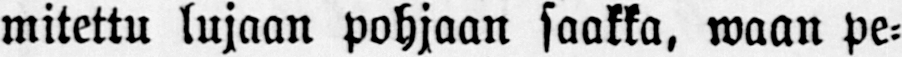mitettu lujaan pohjaan saakka, waan pe-
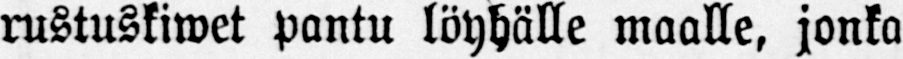rustuskiwet pantu löyhälle maalle, jonka
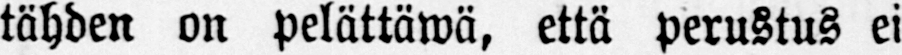tähden on pelättäwä, että perustus ei
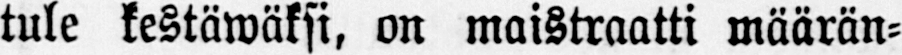tule kestäwäksi, on maistraatti määrän-
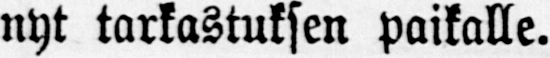nyt tarkastuksen paikalle.
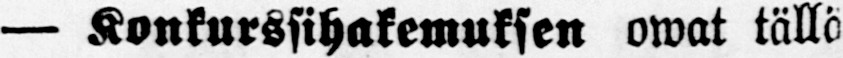— Konkurssihakemuksen owat tällä
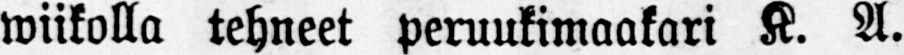wiikolla tehneet peruukimaakari K. A.
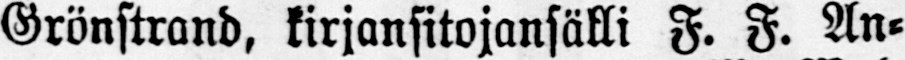Grönstrand, kirjansitojansälli F. F. An-
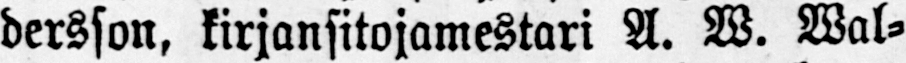dersson, kirjansitojamestari A. W. Wal-
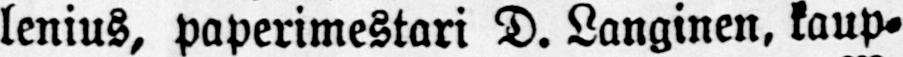lenius, paperimestari D. Langinen. kaup-
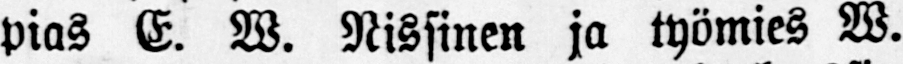pias E. W. Nissinen ja työmies W.
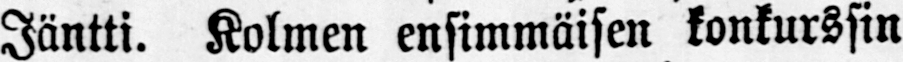Jäntti. Kolmen ensimmäisen konkurssin
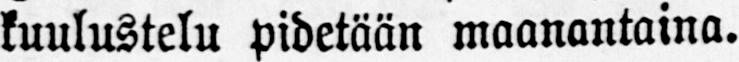kuulustelu pidetään maanantaina.
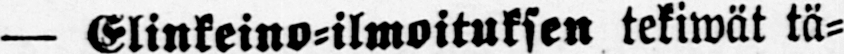— Elinkeino-ilmoituksen tekiwät tä-
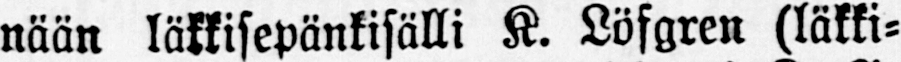nään läkkisepänkisälli K. Löfgren (läkki-
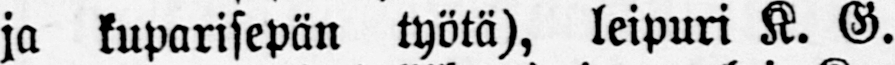ja kuparisepän työtä), leipuri K. G.
